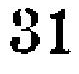31
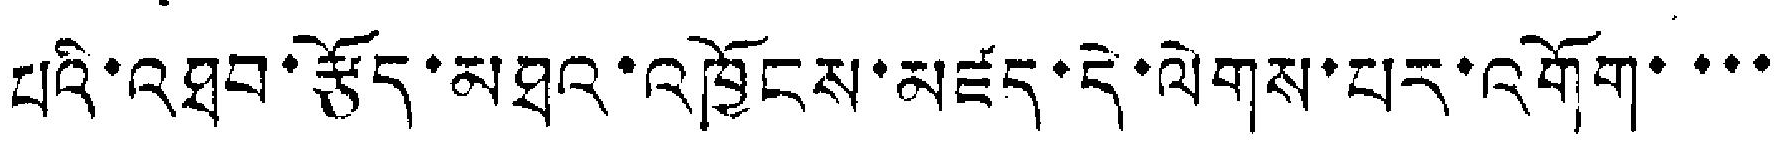པའི་འཐབ་རྩོད་མཐའ་འཁྱོངས་མཛད་དེ་ལེགས་པར་འགོག་་་་
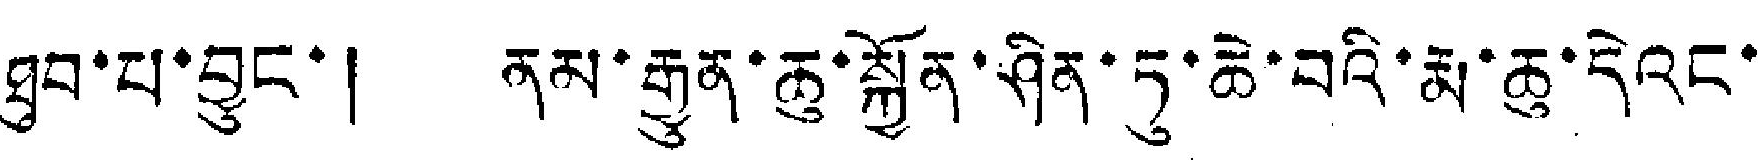ཐུབ་པ་བྱུང་། ནམ་རྒྱུན་ཆུ་སྐྱོན་ཤིན་ཏུ་ཆེ་བའི་རྨ་ཆུ་དེའང་
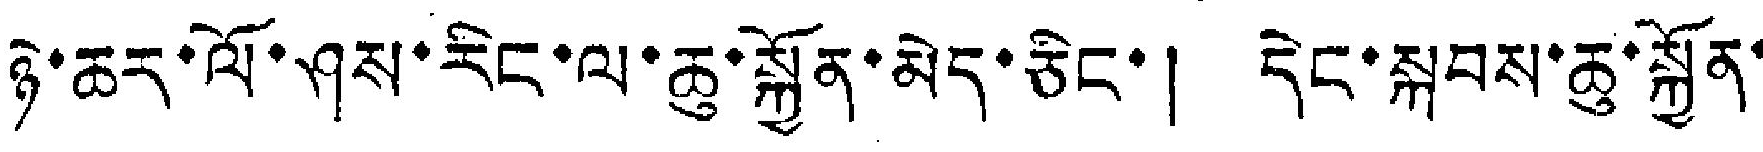ཉེ་ཆར་ལོ་ཤས་རིང་ལ་ཆུ་སྐྱོན་མེད་ཅིང་། དེང་སྐབས་ཆུ་སྐྱོན་
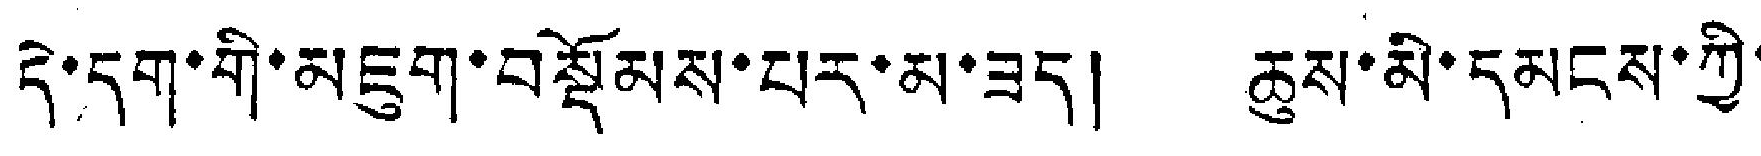དེ་དག་གི་མཇུག་བསྡོམས་པར་མ་ཟད། ཆུས་མི་དམངས་ཀྱི་
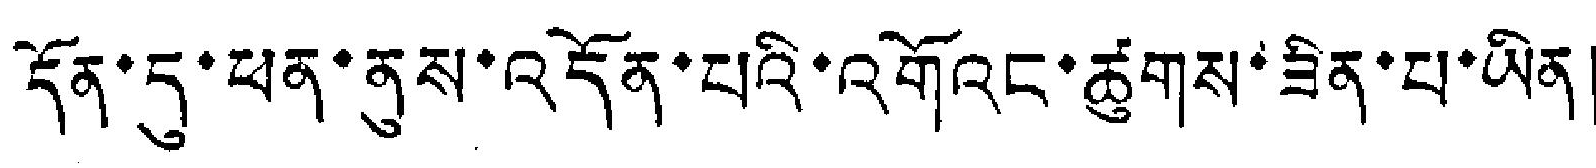དོན་དུ་ཕན་ནུས་འདོན་པའི་འགོའང་ཚུགས་ཟིན་པ་ཡིན།
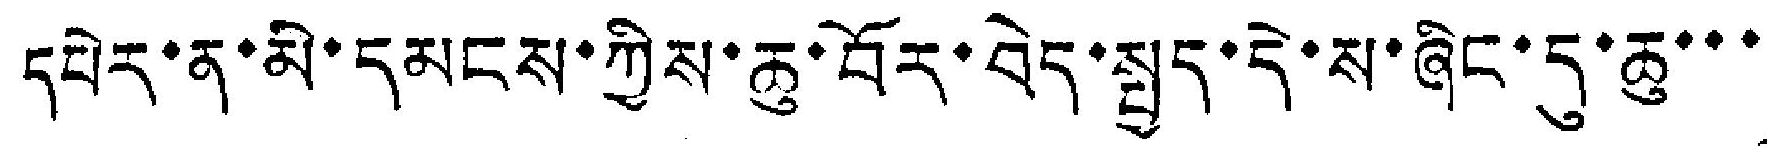དཔེར་ན་མི་དམངས་ཀྱིས་ཆུ་བོར་བེད་སྤྱད་དེ་ས་ཞིང་དུ་ཆུ་་་
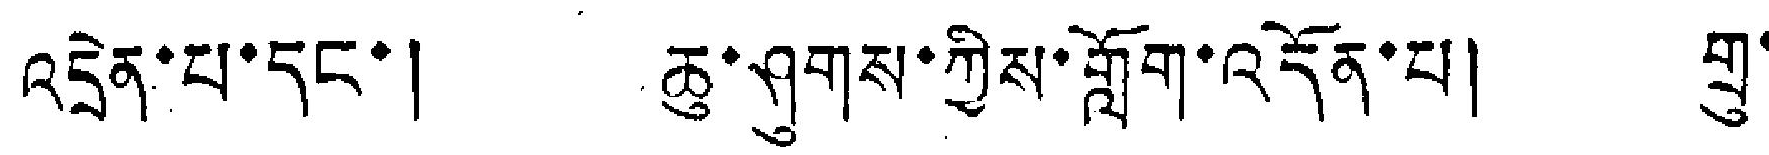འདྲེན་པ་དང་། ཆུ་ཤུགས་ཀྱིས་ཀློག་འདོན་པ། གྲུ་
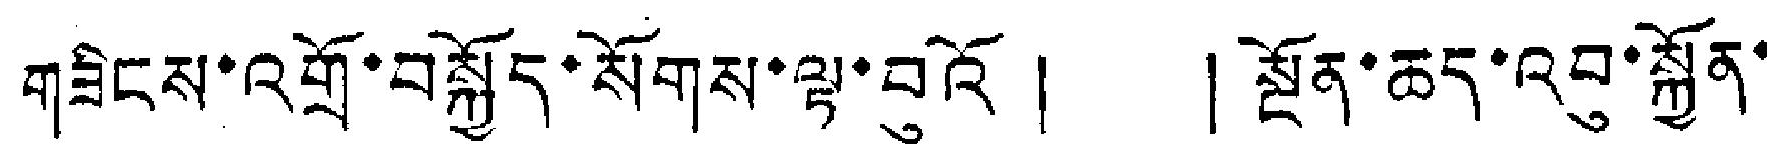གཟིངས་འགྲོ་བསྐྱོད་སོགས་ལྟ་བུའོ ། ། སྔོན་ཆད་འབུ་སྐྱོན་
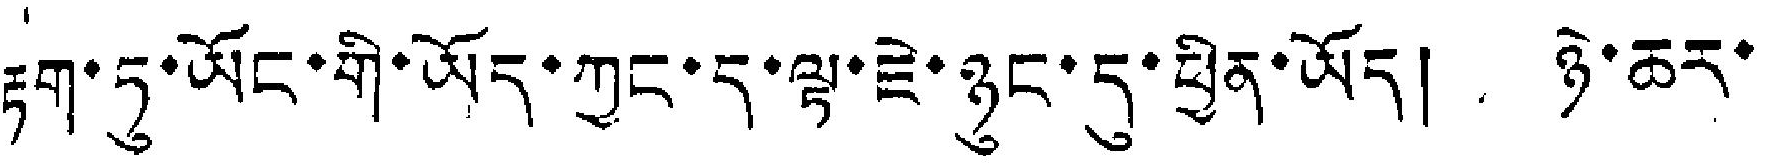རྟག་ཏུ་ཡོང་གི་ཡོད་ཀྱང་ད་ལྟ་ཇེ་ཉུང་དུ་ཕྱིན་ཡོད། ཉེ་ཆར་
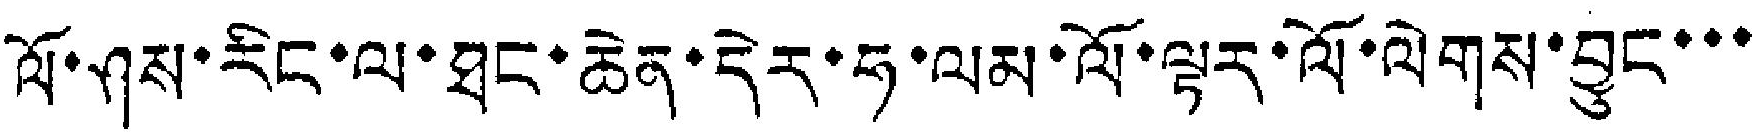ལོ་ཤས་རིང་ལ་ཐང་ཆེན་དེར་ཧ་ལམ་ལོ་ལྟར་ལོ་ལེགས་བྱུང་་་
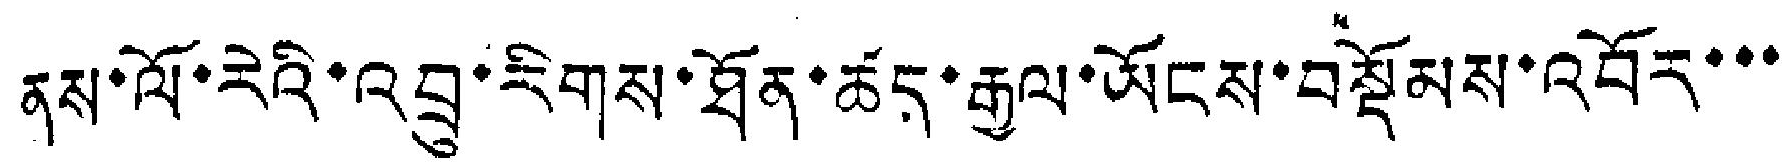ནས་ལོ་རེའི་འབྲུ་རིགས་ཐོན་ཚད་རྒྱལ་ཡོངས་བསྡོམས་འབོར་་་
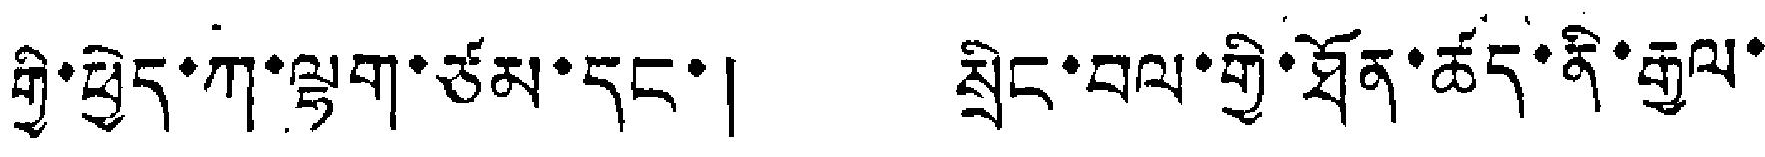གྱི་ཕྱེད་ཀ་ལྷག་ཙམ་དང་། སྲིང་བལ་གྱི་ཐོན་ཚད་ནི་རྒྱལ་
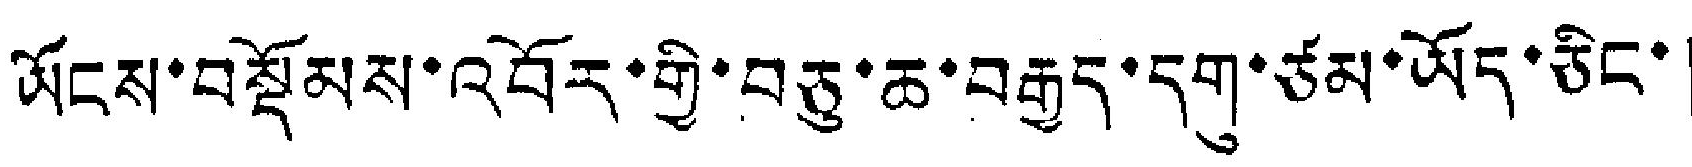ཡོངས་བསྡོམས་འབོར་གྱི་བཅུ་ཆ་བརྒྱད་དགུ་ཙམ་ཡོད་ཅིང་།
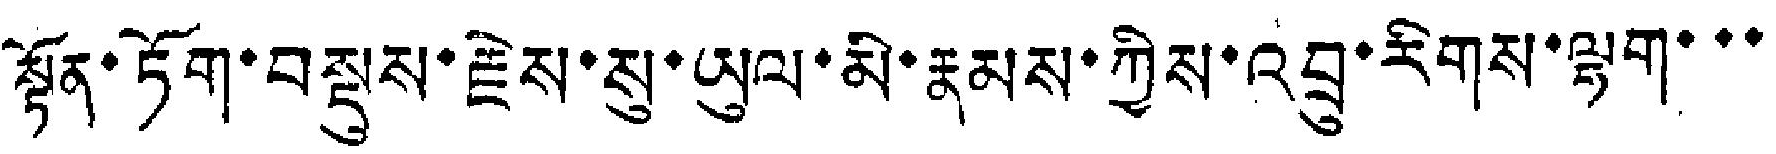སྟོན་ཏོག་བསྡུས་རྗེས་སུ་ཡུལ་མི་རྣམས་ཀྱིས་འབྲུ་རིགས་ལྷག་་་
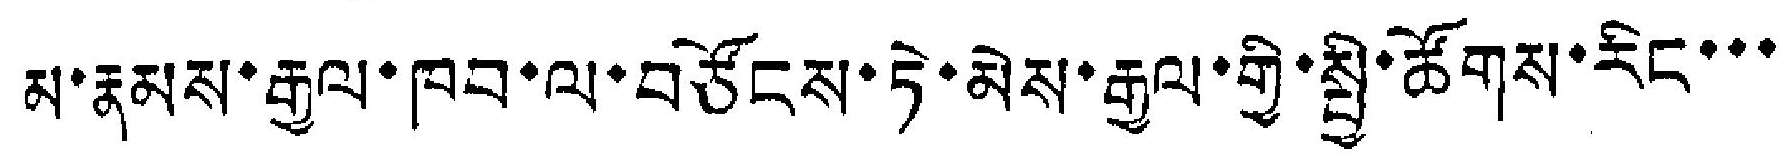མ་རྣམས་རྒྱལ་ཁབ་ལ་བཅོངས་ཏེ་མེས་རྒྱལ་གྱི་སྤྱི་ཚོགས་རིང་་་
